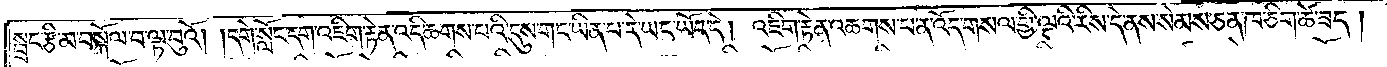སྦྲང་རྩི་མ་བསྐོལ་བ་ལྟ་བུའོ། །དགེ་སློང་དག་འཇིག་རྟེན་འདི་ཆགས་པའི་དུས་གང་ཡིན་པ་དེ་ཡང་ཡོད་དེ། འཇིག་རྟེན་འཆགས་པ་ན་འོད་གསལ་གྱི་(ལྔའི)་རིས་དེ་ནས་སེམས་ཅན་ཁ་ཅིག་ཚེ་ཟད།
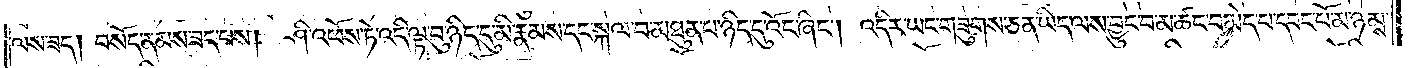ལས་ཟད། བསོད་ནམས་ཟད་པས། ཤི་འཕོས་ཏེ་འདི་ལྟ་བུ་ཉིད་དུ་མི་རྣམས་དང་སྐལ་བ་མཐུན་པ་ཉིད་དུ་འོང་ཞིང༌། འདིར་ཡང་གཟུགས་ཅན་ཡིད་ལས་བྱུང་བ་མ་ཚང་བ་མེད་པ་དབང་པོ་མ་ཉམས་
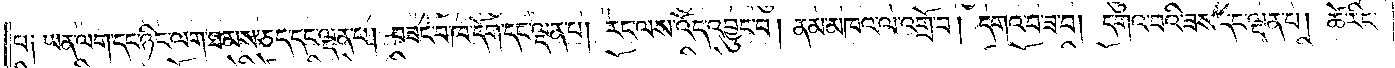པ༑ ཡན་ལག་དང་ཉིང་ལག་ཐམས་ཅད་དང་ལྡན་པ། བཟང་བ་ཁ་དོག་དང་ལྡན་པ། རང་ལས་འོད་འབྱུང་བ། ནམ་མཁའ་ལ་འགྲོ་བ། དགའ་བ་ཟ་བ། དགའ་བའི་ཟས་དང་ལྡན་པ། ཚེ་རིང་
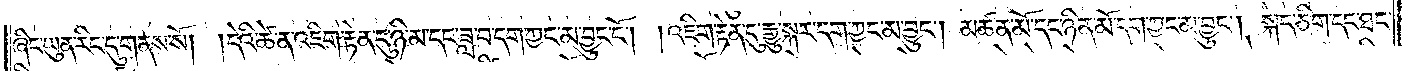ཞིང་ཡུན་རིང་དུ་གནས་སོ། །དེའི་ཚེ་ན་འཇིག་རྟེན་དུ་ཉི་མ་དང་ཟླ་བ་དག་ཀྱང་མ་བྱུང་ངོ༌། །འཇིག་རྟེན་དུ་རྒྱུ་སྐར་དག་ཀྱང་མ་བྱུང༌། མཚན་མོ་དང་ཉིན་མོ་དག་ཀྱང་མ་བྱུང༌། སྐད་ཅིག་དང་ཐང་
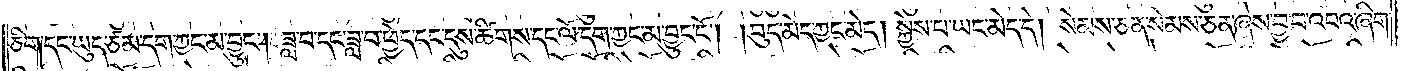ཅིག་དང་ཡུད་ཙམ་དག་ཀྱང་མ་བྱུང༌། ཟླ་བ་དང་ཟླ་བ་ཕྱེད་དང་དུས་ཚིགས་དང་ལོ་དག་ཀྱང་མ་བྱུང་ངོ༌། །བུད་མེད་ཀྱང་མེད། སྐྱེས་པ་ཡང་མེད་དེ། སེམས་ཅན་སེམས་ཅན་ཞེས་བྱ་བ་འབའ་ཞིག་
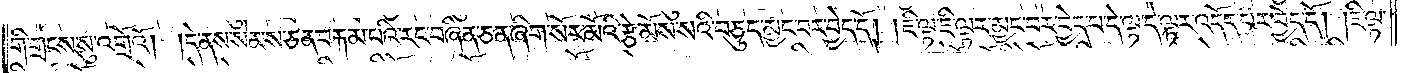གི་གྲངས་སུ་འགྲོའོ། །དེ་ནས་སེམས་ཅན་བརྐམ་པའི་རང་བཞིན་ཅན་ཞིག་སོར་མོའི་རྩེ་མོས་སའི་བཅུད་མྱང་བར་བྱེད་དོ། །ཇི་ལྟ་ཇི་ལྟར་མྱང་བར་བྱེད་པ་དེ་ལྟ་དེ་ལྟར་འདོད་པར་བྱེད་དོ། །ཇི་ལྟ་
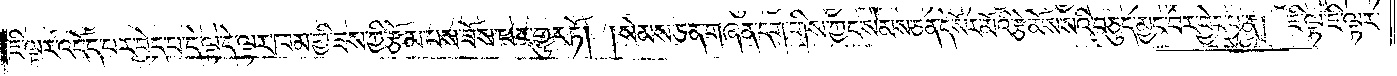ཇི་ལྟར་འདོད་པར་བྱེད་པ་དེ་ལྟ་དེ་ལྟར་ཁམ་གྱི་ཟས་ཀྱི་རྩོམ་པས་ཟོས་པར་གྱུར་ཏོ། །སེམས་ཅན་གཞན་དག་གིས་ཀྱང་སེམས་ཅན་དེ་སོར་མོའི་རྩེ་མོས་སའི་བཅུད་མྱང་བར་བྱེད་པ་ན།   ཇི་ལྟ་ཇི་ལྟར་
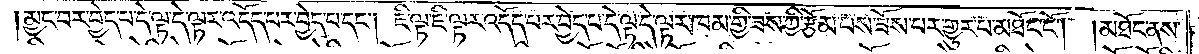མྱང་བར་བྱེད་པ་དེ་ལྟ་དེ་ལྟར་འདོད་པར་བྱེད་པ་དང༌། ཇི་ལྟ་ཇི་ལྟར་འདོད་པར་བྱེད་པ་དེ་ལྟ་དེ་ལྟར་ཁམ་གྱི་ཟས་ཀྱི་རྩོམ་པས་ཟོས་པར་གྱུར་པ་མཐོང་ངོ༌།   །མཐོང་ནས་
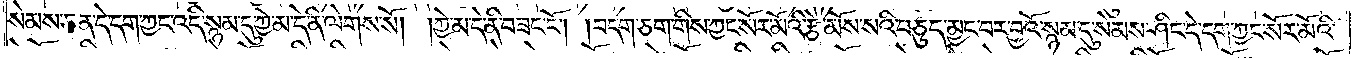སེམས་ཅན་དེ་དག་ཀྱང་འདི་སྙམ་དུ་ཀྱེ་མ་དེ་ནི་ལེགས་སོ། །ཀྱེ་མ་དེ་ནི་བཟང་ངོ༌། །བདག་ཅག་གིས་ཀྱང་སོར་མོའི་རྩེ་མོས་སའི་བཅུད་མྱང་བར་བྱའོ་སྙམ་དུ་སེམས་ཤིང་དེ་དག་ཀྱང་སོར་མོའི་
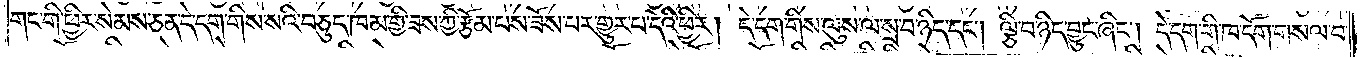གང་གི་ཕྱིར་སེམས་ཅན་དེ་དག་གིས་སའི་བཅུད་ཁམ་གྱི་ཟས་ཀྱི་རྩོམ་པས་ཟོས་པར་གྱུར་པ་དེའི་ཕྱིར། དེ་དག་གིས་ལུས་ལ་སྲ་བ་ཉིད་དང༌། ལྕི་བ་ཉིད་བྱུང་ཞིང༌། དེ་དག་གི་ཁ་དོག་གསལ་བ་
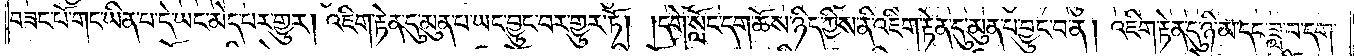བཟང་པོ་གང་ཡིན་པ་དེ་ཡང་མེད་པར་གྱུར། འཇིག་རྟེན་དུ་མུན་པ་ཡང་བྱུང་བར་གྱུར་ཏོ། །དགེ་སློང་དག་ཆོས་ཉིད་ཀྱིས་ནི་འཇིག་རྟེན་དུ་མུན་པ་བྱུང་བ་ན། འཇིག་རྟེན་དུ་ཉི་མ་དང་ཟླ་བ་དག་
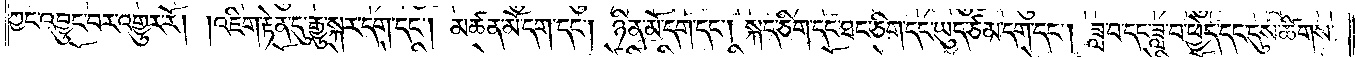ཀྱང་འབྱུང་བར་འགྱུར་རོ། །འཇིག་རྟེན་དུ་རྒྱུ་སྐར་དག་དང༌། མཚན་མོ་དག་དང༌། ཉིན་མོ་དག་དང༌། སྐད་ཅིག་དང་ཐང་ཅིག་དང་ཡུད་ཙམ་དག་དང༌། ཟླ་བ་དང་ཟླ་བ་ཕྱེད་དང་དུས་ཚིགས་
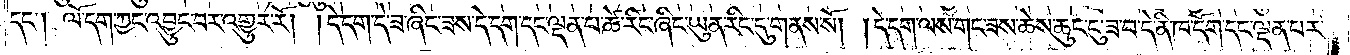དང༌། ལོ་དག་ཀྱང་འབྱུང་བར་འགྱུར་རོ། །དེ་དག་དེ་ཟ་ཞིང་ཟས་དེ་དག་དང་ལྡན་པ་ཚེ་རིང་ཞིང་ཡུན་རིང་དུ་གནས་སོ། །དེ་དག་ལས་གང་ཟས་ཆེས་ཆུང་ངུ་ཟ་བ་དེ་ནི་ཁ་དོག་དང་ལྡན་པར་
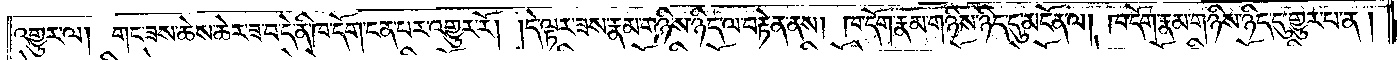འགྱུར་ལ། གང་ཟས་ཆེས་ཆེར་ཟ་བ་དེ་ནི་ཁ་དོག་ངན་པར་འགྱུར་རོ། །དེ་ལྟར་ཟས་རྣམ་གཉིས་ཉིད་ལ་བརྟེན་ནས། ཁ་དོག་རྣམ་གཉིས་ཉིད་དུ་མངོན་ལ། ཁ་དོག་རྣམ་གཉིས་ཉིད་དུ་གྱུར་པ་ན།
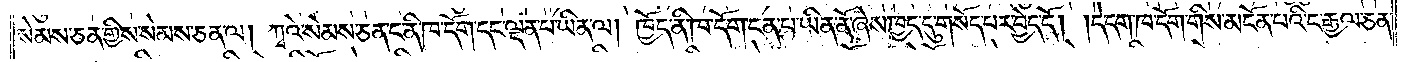སེམས་ཅན་གྱིས་སེམས་ཅན་ལ། ཀྭའེ་སེམས་ཅན་ང་ནི་ཁ་དོག་དང་ལྡན་པ་ཡིན་ལ། ཁྱོད་ནི་ཁ་དོག་ངན་པ་ཡིན་ནོ་ཞེས་ཁྱད་དུ་གསོད་པར་བྱེད་དོ། །དེ་དག་ཁ་དོག་གིས་མངོན་པའི་ང་རྒྱལ་ཅན་
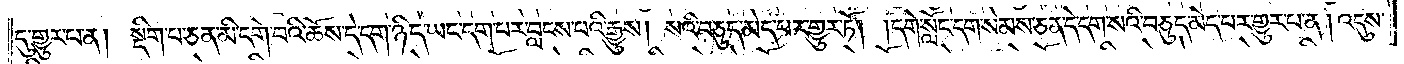དུ་གྱུར་པ་ན། སྡིག་པ་ཅན་མི་དགེ་བའི་ཆོས་དེ་དག་ཉིད་ཡང་དག་པར་བླངས་པའི་རྒྱུས། སའི་བཅུད་མེད་པར་གྱུར་ཏོ། །དགེ་སློང་དག་སེམས་ཅན་དེ་དག་སའི་བཅུད་མེད་པར་གྱུར་པ་ན། འདུས་
